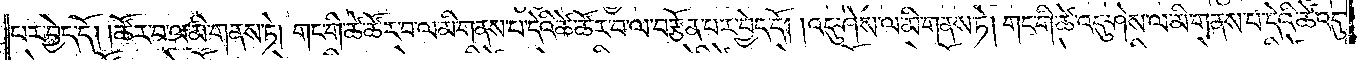པར་བྱེད་དོ། །ཚོར་བ་ལ་མི་གནས་ཏེ། གང་གི་ཚེ་ཚོར་བ་ལ་མི་གནས་པ་དེའི་ཚེ་ཚོར་བ་ལ་བརྩོན་པར་བྱེད་དོ། །འདུ་ཤེས་ལ་མི་གནས་ཏེ། གང་གི་ཚེ་འདུ་ཤེས་ལ་མི་གནས་པ་དེའི་ཚེ་འདུ་
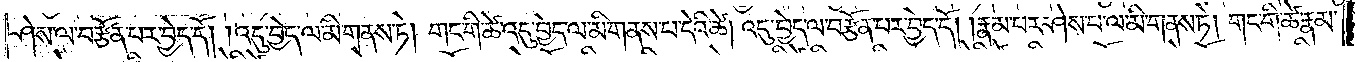ཤེས་ལ་བརྩོན་པར་བྱེད་དོ། །འདུ་བྱེད་ལ་མི་གནས་ཏེ། གང་གི་ཚེ་འདུ་བྱེད་ལ་མི་གནས་པ་དེའི་ཚེ། འདུ་བྱེད་ལ་བརྩོན་པར་བྱེད་དོ། །རྣམ་པར་ཤེས་པ་ལ་མི་གནས་ཏེ། གང་གི་ཚེ་རྣམ་
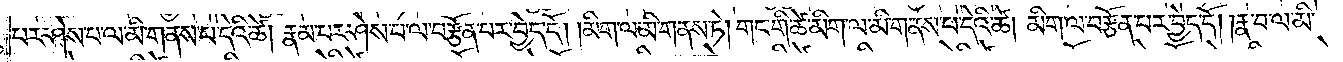པར་ཤེས་པ་ལ་མི་གནས་པ་དེའི་ཚེ། རྣམ་པར་ཤེས་པ་ལ་བརྩོན་པར་བྱེད་དོ། །མིག་ལ་མི་གནས་ཏེ། གང་གི་ཚེ་མིག་ལ་མི་གནས་པ་དེའི་ཚེ། མིག་ལ་བརྩོན་པར་བྱེད་དོ། །རྣ་བ་ལ་མི་
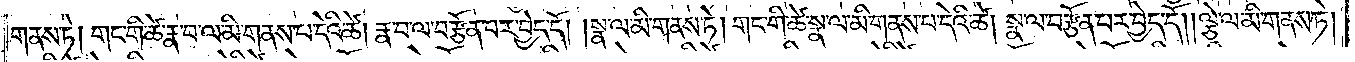གནས་ཏེ། གང་གི་ཚེ་རྣ་བ་ལ་མི་གནས་པ་དེའི་ཚེ། རྣ་བ་ལ་བརྩོན་པར་བྱེད་དོ། །སྣ་ལ་མི་གནས་ཏེ། གང་གི་ཚེ་སྣ་ལ་མི་གནས་པ་དེའི་ཚེ། སྣ་ལ་བརྩོན་པར་བྱེད་དོ། །ལྕེ་ལ་མི་གནས་ཏེ།
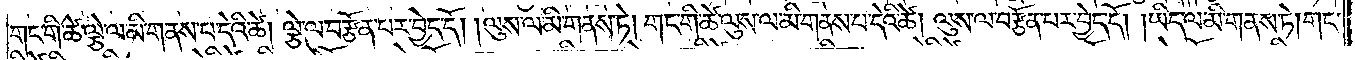གང་གི་ཚེ་ལྕེ་ལ་མི་གནས་པ་དེའི་ཚེ། ལྕེ་ལ་བརྩོན་པར་བྱེད་དོ། །ལུས་ལ་མི་གནས་ཏེ། གང་གི་ཚེ་ལུས་ལ་མི་གནས་པ་དེའི་ཚེ། ལུས་ལ་བརྩོན་པར་བྱེད་དོ། །ཡིད་ལ་མི་གནས་ཏེ། གང་
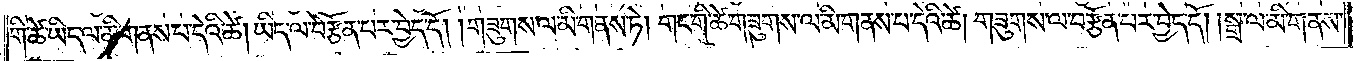གི་ཚེ་ཡིད་ལ་མི་གནས་པ་དེའི་ཚེ། ཡིད་ལ་བརྩོན་པར་བྱེད་དོ། །གཟུགས་ལ་མི་གནས་ཏེ། གང་གི་ཚེ་གཟུགས་ལ་མི་གནས་པ་དེའི་ཚེ། གཟུགས་ལ་བརྩོན་པར་བྱེད་དོ། །སྒྲ་ལ་མི་གནས་
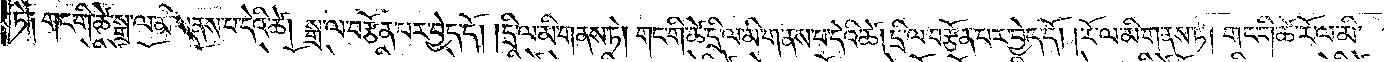ཏེ༑ གང་གི་ཚེ་སྒྲ་ལ་མི་གནས་པ་དེའི་ཚེ། སྒྲ་ལ་བརྩོན་པར་བྱེད་དོ། །དྲི་ལ་མི་གནས་ཏེ། གང་གི་ཚེ་དྲི་ལ་མི་གནས་པ་དེའི་ཚེ། དྲི་ལ་བརྩོན་པར་བྱེད་དོ། །རོ་ལ་མི་གནས་ཏེ། གང་གི་ཚེ་རོ་ལ་མི་
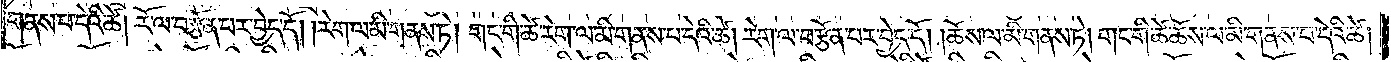གནས་པ་དེའི་ཚེ། རོ་ལ་བརྩོན་པར་བྱེད་དོ། །རེག་ལ་མི་གནས་ཏེ། གང་གི་ཚེ་རེག་ལ་མི་གནས་པ་དེའི་ཚེ། རེག་ལ་བརྩོན་པར་བྱེད་དོ། །ཆོས་ལ་མི་གནས་ཏེ། གང་གི་ཚེ་ཆོས་ལ་མི་གནས་པ་དེའི་ཚེ།
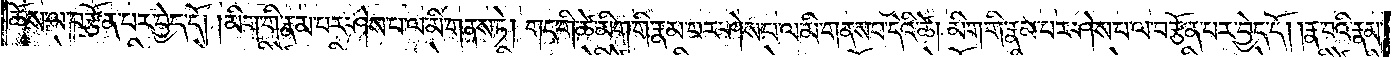ཆོས་ལ་བརྩོན་པར་བྱེད་དོ། །མིག་གི་རྣམ་པར་ཤེས་པ་ལ་མི་གནས་ཏེ། གང་གི་ཚེ་མིག་གི་རྣམ་པར་ཤེས་པ་ལ་མི་གནས་པ་དེའི་ཚེ། མིག་གི་རྣམ་པར་ཤེས་པ་ལ་བརྩོན་པར་བྱེད་དོ། །རྣ་བའི་རྣམ་
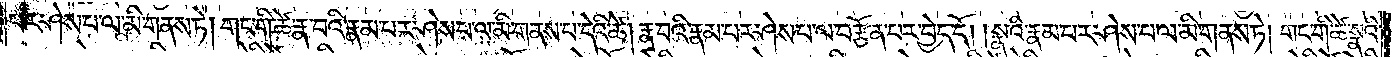པར་ཤེས་པ་ལ་མི་གནས་ཏེ། གང་གི་ཚེ་རྣ་བའི་རྣམ་པར་ཤེས་པ་ལ་མི་གནས་པ་དེའི་ཚེ། རྣ་བའི་རྣམ་པར་ཤེས་པ་ལ་བརྩོན་པར་བྱེད་དོ། །སྣའི་རྣམ་པར་ཤེས་པ་ལ་མི་གནས་ཏེ། གང་གི་ཚེ་སྣའི་
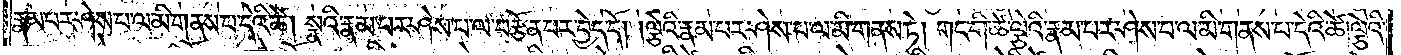རྣམ་པར་ཤེས་པ་ལ་མི་གནས་པ་དེའི་ཚེ། སྣའི་རྣམ་པར་ཤེས་པ་ལ་བརྩོན་པར་བྱེད་དོ། །ལྕེའི་རྣམ་པར་ཤེས་པ་ལ་མི་གནས་ཏེ། གང་གི་ཚེ་ལྕེའི་རྣམ་པར་ཤེས་པ་ལ་མི་གནས་པ་དེའི་ཚེ། ལྕེའི་
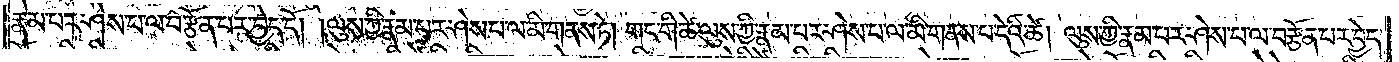རྣམ་པར་ཤེས་པ་ལ་བརྩོན་པར་བྱེད་དོ། །ལུས་ཀྱི་རྣམ་པར་ཤེས་པ་ལ་མི་གནས་ཏེ། གང་གི་ཚེ་ལུས་ཀྱི་རྣམ་པར་ཤེས་པ་ལ་མི་གནས་པ་དེའི་ཚེ། ལུས་ཀྱི་རྣམ་པར་ཤེས་པ་ལ་བརྩོན་པར་བྱེད་
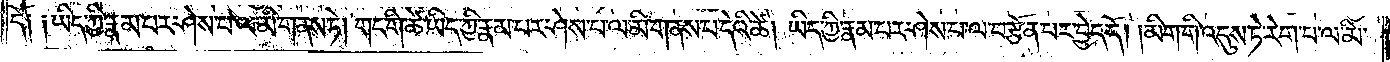དོ༑ ༑ཡིད་ཀྱི་རྣམ་པར་ཤེས་པ་ལ་མི་གནས་ཏེ། གང་གི་ཚེ་ཡིད་ཀྱི་རྣམ་པར་ཤེས་པ་ལ་མི་གནས་པ་དེའི་ཚེ། ཡིད་ཀྱི་རྣམ་པར་ཤེས་པ་ལ་བརྩོན་པར་བྱེད་དོ། །མིག་གི་འདུས་ཏེ་རེག་པ་ལ་མི་
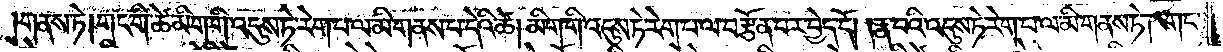གནས་ཏེ། གང་གི་ཚེ་མིག་གི་འདུས་ཏེ་རེག་པ་ལ་མི་གནས་པ་དེའི་ཚེ། མིག་གི་འདུས་ཏེ་རེག་པ་ལ་བརྩོན་པར་བྱེད་དོ། །རྣ་བའི་འདུས་ཏེ་རེག་པ་ལ་མི་གནས་ཏེ། གང་
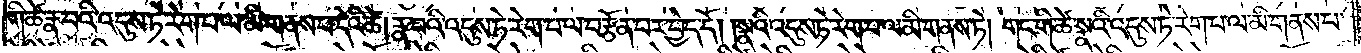གི་ཚེ་རྣ་བའི་འདུས་ཏེ་རེག་པ་ལ་མི་གནས་པ་དེའི་ཚེ། རྣ་བའི་འདུས་ཏེ་རེག་པ་ལ་བརྩོན་པར་བྱེད་དོ། །སྣའི་འདུས་ཏེ་རེག་པ་ལ་མི་གནས་ཏེ། གང་གི་ཚེ་སྣའི་འདུས་ཏེ་རེག་པ་ལ་མི་གནས་པ་
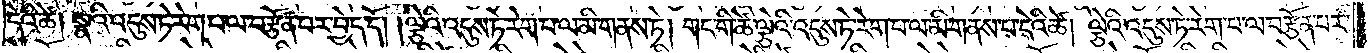དེའི་ཚེ། སྣའི་འདུས་ཏེ་རེག་པ་ལ་བརྩོན་པར་བྱེད་དོ། །ལྕེའི་འདུས་ཏེ་རེག་པ་ལ་མི་གནས་ཏེ། གང་གི་ཚེ་ལྕེའི་འདུས་ཏེ་རེག་པ་ལ་མི་གནས་པ་དེའི་ཚེ། ལྕེའི་འདུས་ཏེ་རེག་པ་ལ་བརྩོན་པར་
